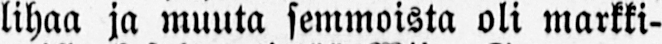lihaa ja muuta semmoista oli markki-
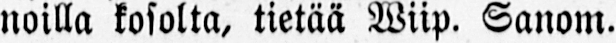noilla kosolta, tietää Wiip. Sanom.
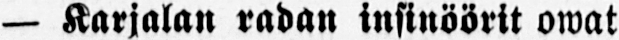— Karjalan radan insinöörit owat
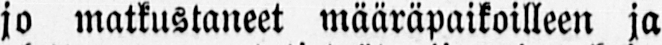jo matkustaneet määräpaikoilleen ja
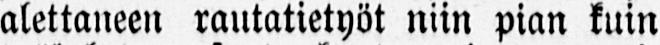alettaneen rautatietyöt niin pian kuin
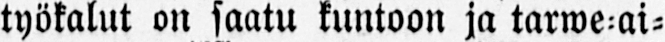työkalut on saatu kuntoon ja tarwe-ai-
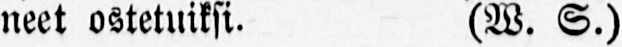neet ostetuiksi. (W. S.)
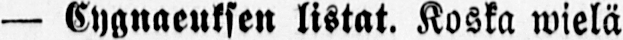— Cygnaeuksen listat. Koska wielä
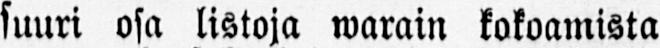suuri osa listoja warain kokoamista
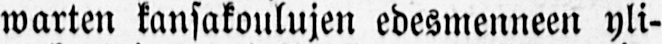warten kansakoulujen edesmenneen yli-
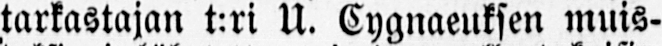tarkastajan t:ri U. Cygnaeuksen muis-
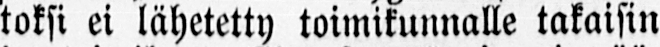toksi ei lähetetty toimikunnalle takaisin
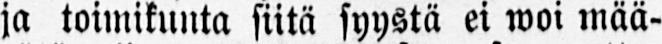ja toimikunta siitä syystä ei woi mää-
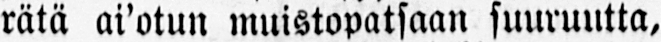rätä ai'otun muistopatsaan suuruutta,
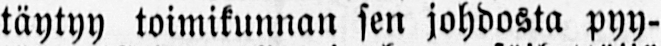täytyy toimikunnan sen johdosta pyy-
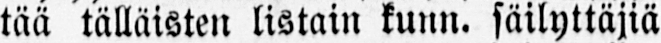tää tälläisten listain kunn. säilyttäjiä
